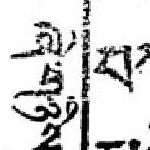ཞེ་གཉིས་
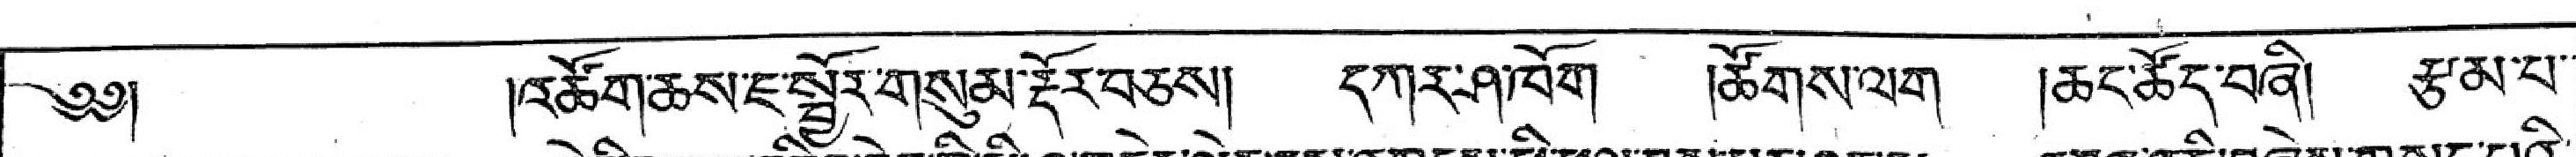༄༅།  །འཚོག་ཆས་ཇ་སྦྱོར་གསུམ་རྡོར་བཅས། དཀར་ཤ་ཁོག །ཚོགས་ལག །ཆང་ཚོད་བཞི། རྩམ་པ་་
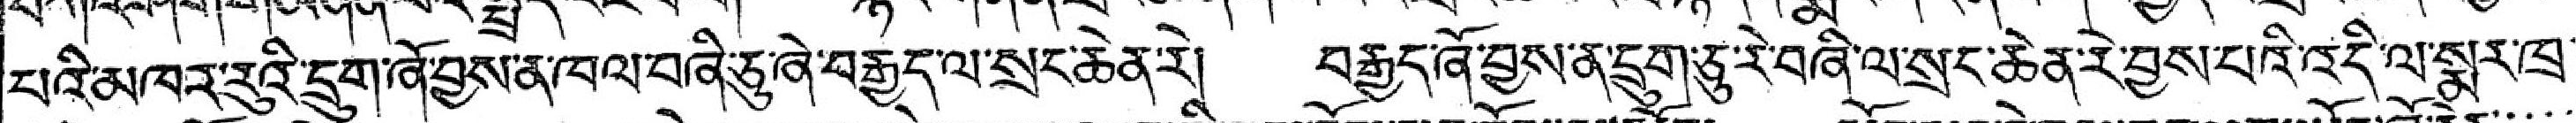པའི་མཁར་རུའི་དྲུག་ཞོ་བྱས་ན་ཁལ་བཞི་ཅུ་ཞེ་བརྒྱད་ལ་སྲང་ཆེན་རེ། བརྒྱད་ཞོ་བྱས་ན་དྲུག་ཅུ་རེ་བཞི་ལ་སྲང་ཆེན་རེ་བྱས་པའི་འདི་ལ་སྨར་ཁྲ་
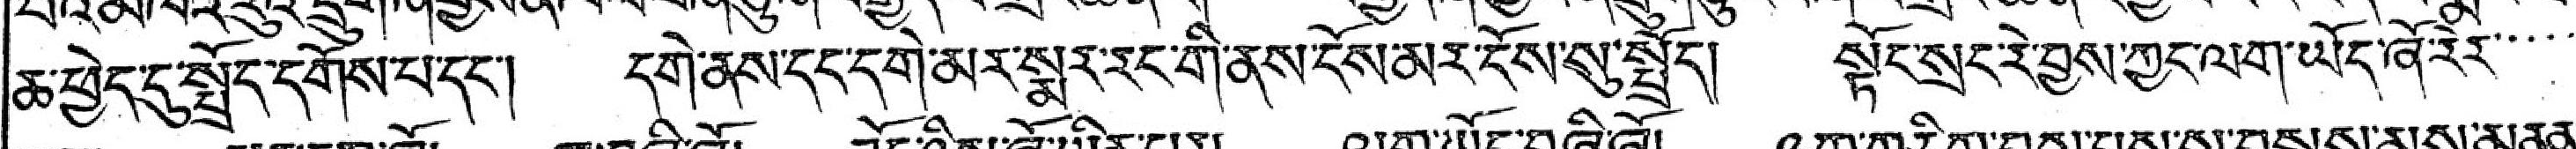ཆ་ཕྱེད་དུ་སྤྲོད་དགོས་པ་དང་། དགེ་ནས་དང་དགེ་མར་སྨར་རང་གི་ནས་ངོས་མར་ངོས་སུ་སྤྱོད། སྟོང་སྲང་རེ་བྱས་ཀྱང་ལག་ཡོད་ཞོ་རེར་་་་
